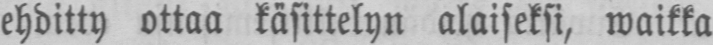ehditty ottaa käsittelyn alaiseksi, waikka
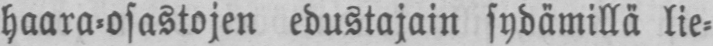haara-osastojen edustajain sydämillä lie-
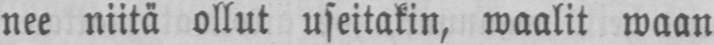nee niitä ollut useitakin, waalit waan
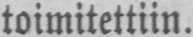toimitettiin.
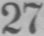27
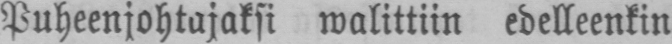Puheenjohtajaksi walittiin edelleenkin
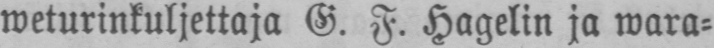weturinkuljettaja G. F. Hagelin ja wara-
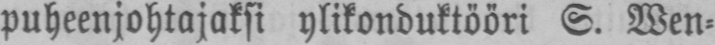puheenjohtajaksi ylikonduktööri S. Wen-
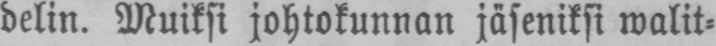delin. Muiksi johtokunnan jäseniksi walit-
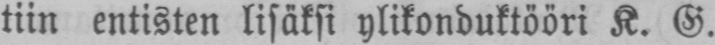tiin entisten lisäksi ylikonduktööri K. G.
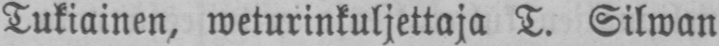Tukiainen, weturinkuljettaja T. Silwan
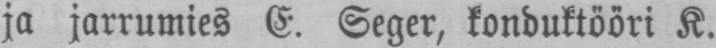ja jarrumies E. Seger, konduktööri K.
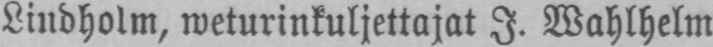Lindholm, weturinkuljettajat I. Wahlhelm
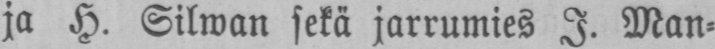ja H. Silwan sekä jarrumies I. Man-
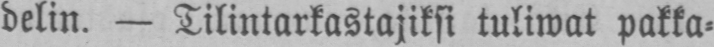delin. — Tilintarkastajiksi tuliwat pakka-
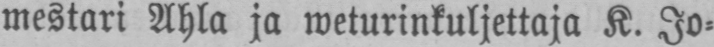mestari Ahla ja weturinkuljettaja K. Jo-
